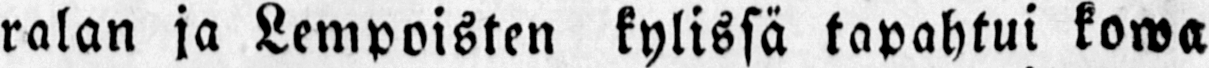ralan ja Lempoisten kylissä tapahtui kowa
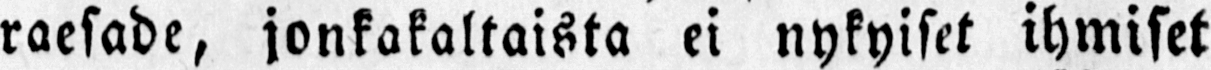raesade, jonkakaltaista ei nykyiset ihmiset
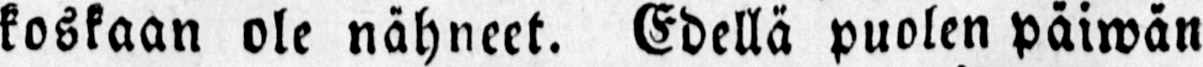koskaan ole nähneet. Edellä puolen päiwän
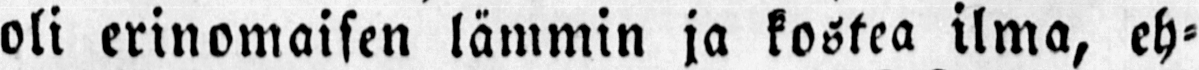oli erinomaisen lämmin ja kostea ilma, eh-
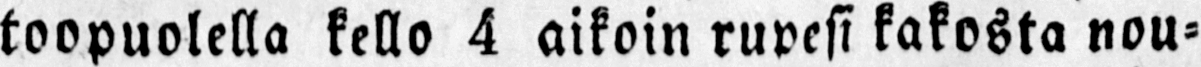toopuolella kello 4 aikoin rupesi kakosta nou-
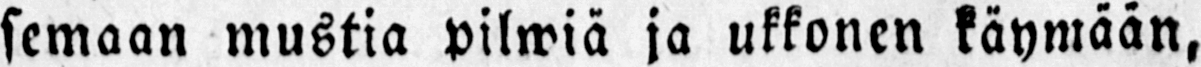semaan mustia pilwiä ja ukkonen käymään,
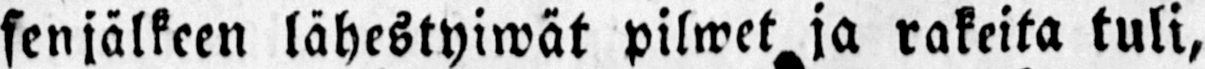senjälkeen lähestyiwät pilwet ja rakeita tuli,
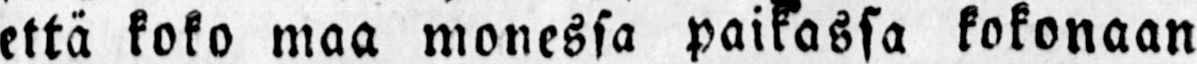että koko maa monessa paikassa kokonaan
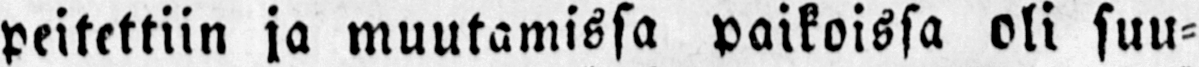peitettiin ja muutamissa paikoissa oli suu-
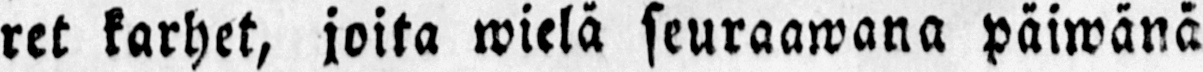ret karhet, joita wielä seuraawana päiwänä
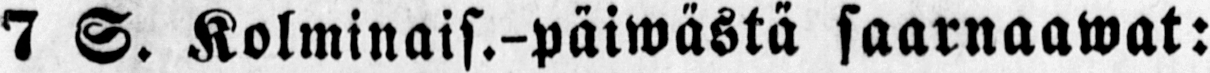7 S. Kolminais.-päiwästä saarnaawat:
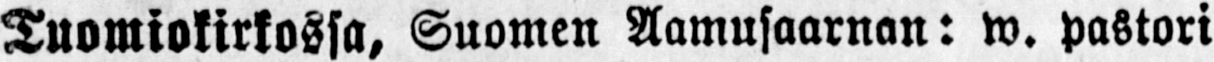Tuomiokirkossa, Suomen Aamusaarnan: w. pastori
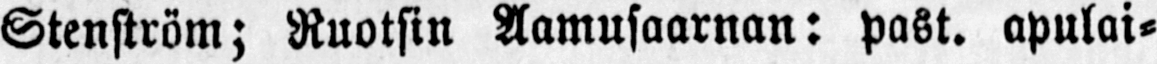Stenström; Ruotsin Aamusaarnan: past. apulai-
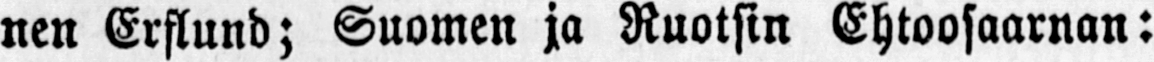nen Erflund; Suomen ja Ruotsin Ehtoosaarnan:
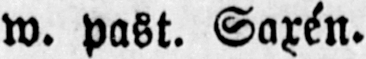W. past. Saxén.
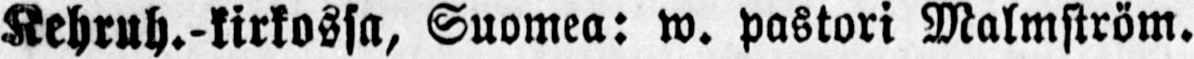Kehruh.-kirkossa, Suomea: w. pastori Malmström.
